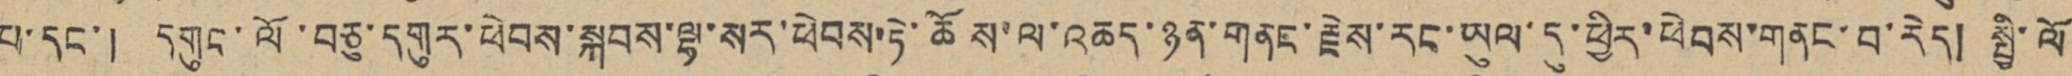པ་དང་། དགུང་ལོ་བཅུ་དགུར་ཕེབས་སྐབས་ལྷ་སར་ཕེབས་ཏེ་ཆོས་ལ་འཆད་ཉན་གནང་རྗེས་རང་ཡུལ་དུ་ཕྱིར་ཕེབས་གནང་བ་རེད། སྤྱི་ལོ
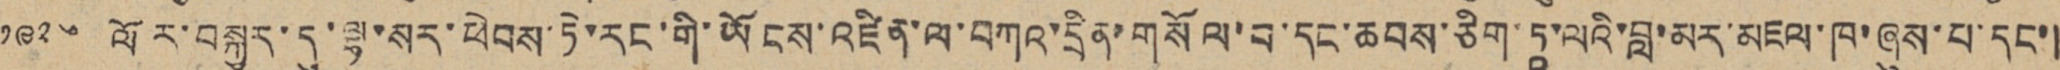༡༩༢༦་ལོར་བསྐྱར་དུ་ལྷ་སར་ཕེབས་ཏེ་རང་གི་ཡོངས་འཛིན་ལ་བཀའ་དྲིན་གསོལ་བ་དང་ཆབས་ཅིག་ཏཱ་ལའི་བླ་མར་མཇལ་ཁ་ཞུས་པ་དང་།
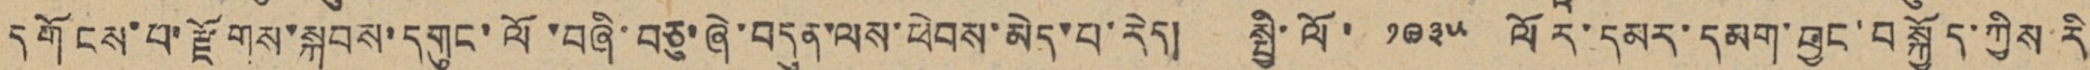དགོངས་པ་རྫོགས་སྐབས་དགུང་ལོ་བཞི་བཅུ་ཞེ་བདུན་ལས་ཕེབས་མེད་པ་རེད། སྤྱི་ལོ་ ༡༩༣༥ ལོར་དམར་དམག་བྱང་བསྐྱོད་ཀྱིས་རི
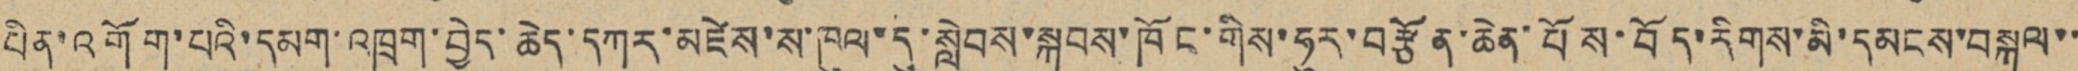པིན་འགོག་པའི་དམག་འཁྲུག་བྱེད་ཆེད་དཀར་མཛེས་ས་ཁུལ་དུ་སླེབས་སྐབས་ཁོང་གིས་ཧུར་བརྩོན་ཆེན་པོས་བོད་རིགས་མི་དམངས་བསྐུལ་་
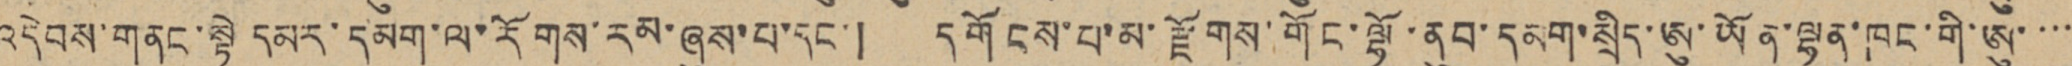འདེབས་གནང་སྟེ དམག་ལ་རོགས་རམ་ཞུས་པ་དང་། དགོངས་པ་མ་རྫོགས་གོང་ལྷོ་ནུབ་དམག་སྲིད་ཨུ་ཡོན་ལྷན་ཁང་གི་ཨུ་་་་
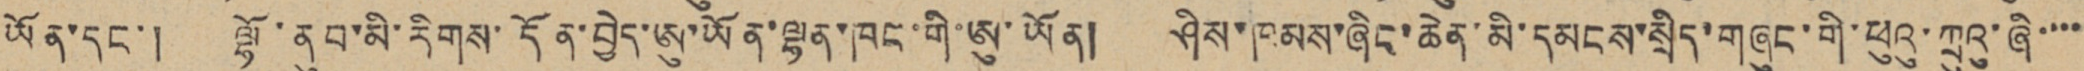ཡོན་དང་། ལྷོ་ནུབ་མི་རིགས་དོན་བྱེད་ཨུ་ཡོན་ལྷན་ཁང་གི་ཨུ་ཡོན། ཤིས་ཁམས་ཞིང་ཆེན་མི་དམངས་སྲིད་གཞུང་གི་ཕུའུ་ཀྲུའུ་ཞི་་་་
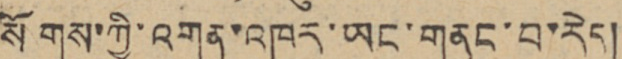སོགས་ཀྱི་འགན་འཁུར་ཡང་གནང་བ་རེད།
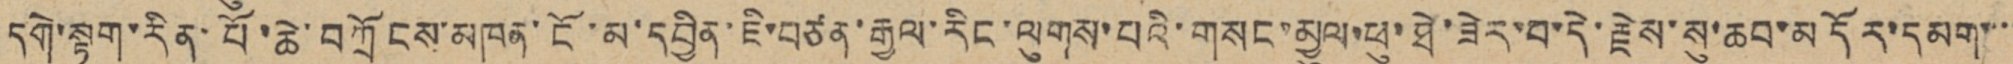དགེ་སྟག་རིན་པོ་ཆེ་བཀྲོངས་མཁན་ངོ་མ་དབྱིན་ཇི་བཙན་རྒྱལ་རིང་ལུགས་པའི་གསང་མྱུལ་ཕུ་ཐེ་ཟེར་བ་དེ་རྗེས་སུ་ཆབ་མདོར་དམག་་་་
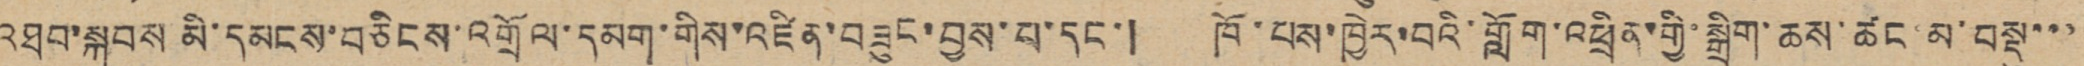འཐབ་སྐབས མི་དམངས་བཅིངས་འགྲོལ་དམག་གིས་འཛིན་བཟུང་བྱས་པ་དང་། ཁོ་པས་ཁྱེར་བའི་གློག་འཕྲིན་གྱི་སྒྲིག་ཆས་ཚང་མ་བསྡུ་་་
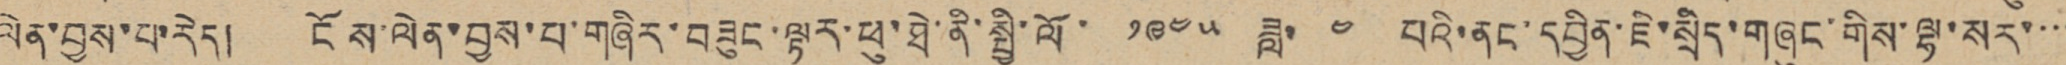ལེན་བྱས་པ་རེད། ངོས་ལེན་བྱས་པ་གཞིར་བཟུང་ལྟར་ཕུ་ཐེ་ནི་སྤྱི་ལོ་ ༡༩༤༥ ཟླ་ ༤ པའི་ནང་དབྱིན་ཇི་སྲིད་གཞུང་གིས་ལྷ་སར་་་་
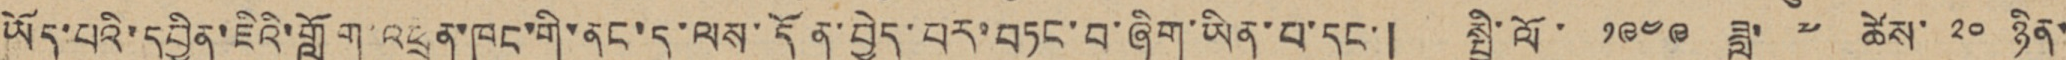ཡོད་པའི་དབྱིན་ཇིའི་གློག་འཕྲིན་ཁང་གི་ནང་དུ་ལས་དོན་བྱེད་བར་བཏང་བ་ཞིག་ཡིན་པ་དང་། སྤྱི་ལོ་ ༡༩༤༩ ཟླ་ ༧ ཚེས་ ༢༠ ཉིན་་
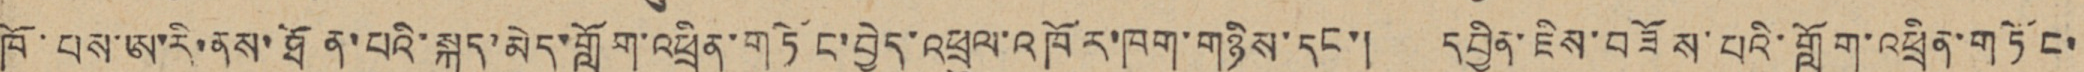ཁོ་པས་ཨ་རི་ནས་ཐོན་པའི་སྐུད་མེད་གློག་འཕྲིན་གཏོང་བྱེད་འཕྲུལ་འཁོར་ཁག་གཉིས་དང་། དབྱིན་ཇིས་བཟོས་པའི་གློག་འཕྲིན་གཏོང་
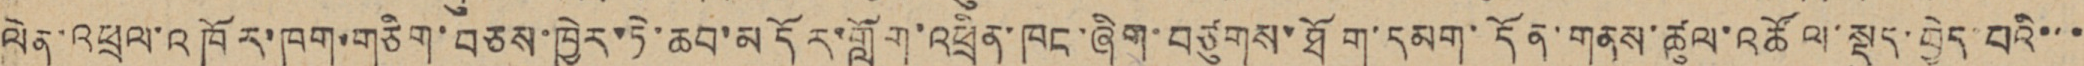ལེན་འཕྲུལ་འཁོར་ཁག་གཅིག་བཅས་ཁྱེར་ཏེ་ཆབ་མདོར་གློག་འཕྲིན་ཁང་ཞིག་བཙུགས་ཐོག་དམག་དོན་གནས་ཚུལ་འཚོལ་སྡུད་བྱེད་པའི་་་
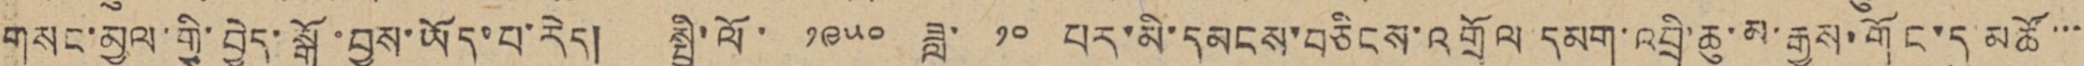གསང་མྱུལ་གྱི་བྱེད་སྒོ་བྱས་ཡོད་པ་རེད། སྤྱི་ལོ་ ༡༩༥༠ ཟླ་ ༡༠ པར་མི་དམངས་བཅིངས་འགྲོལ དམག་འབྲི་ཆུ་མ་རྒྱས་གོང་དུ མཚོ་་་
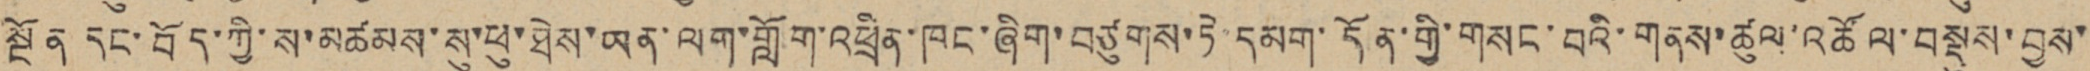སྔོན དང་བོད་ཀྱི་ས་མཚམས་སུ་ཕུ་ཐེས་ཡན་ལག་གློག་འཕྲིན་ཁང་ཞིག་བཙུགས་ཏེ་དམག་དོན་གྱི་གསང་བའི་གནས་ཚུལ་འཚོལ་བསྡུས་བྱས་
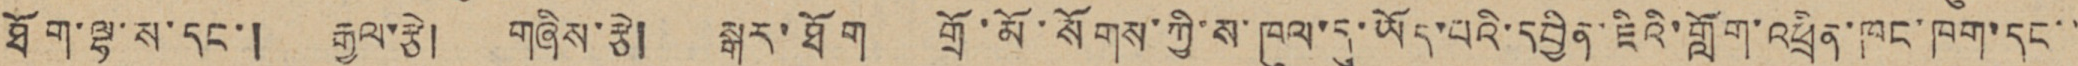ཐོག་ལྷ་ས་དང་། རྒྱལ་རྩེ། གཞིས་རྩེ། སྒར་ཐོག གྲོ་མོ་སོགས་ཀྱི་ས་ཁུལ་དུ་ཡོད་པའི་དབྱིན་ཇིའི་གློག་འཕྲིན་ཁང་ཁག་དང་་
